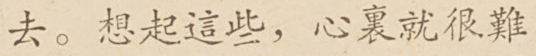去。想起這些，心裏就很難
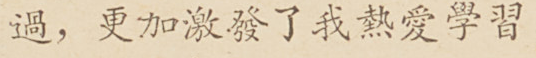過，更加激發了我熱愛學習
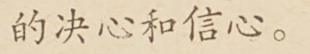的決心和信心。
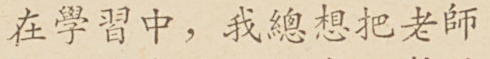在學習中，我總想把老師
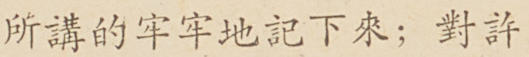所講的牢牢地記下來；對許
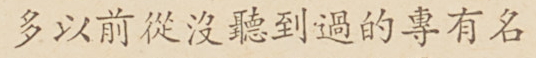多以前從沒聽到過的專有名
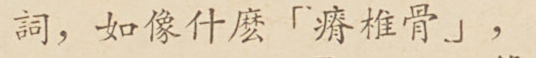詞，如像什麼「瘠椎骨」，
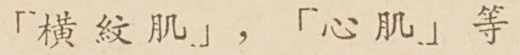「橫紋肌」，「心肌」等
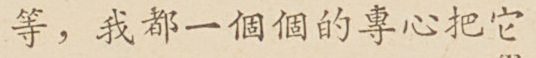等，我都一個個的專心把它
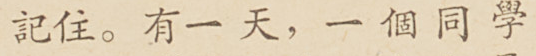記住。有一天，一個同學
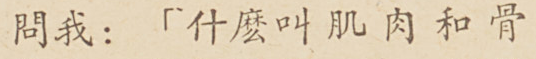問我：「什麼叫肌肉和骨
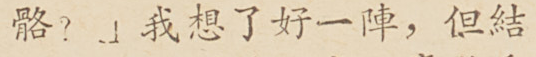骼？」我想了好一陣，但結
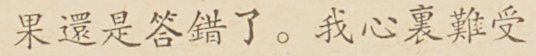過還是答錯了。我心裏難受
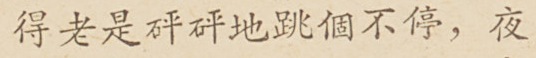得老是砰砰地跳個不停，夜
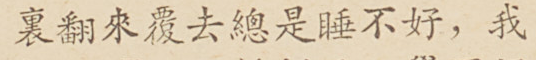裏翻來覆去總是睡不好，我
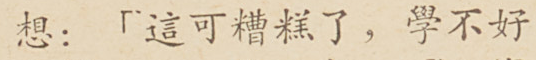想：「這可糟糕了，學不好
